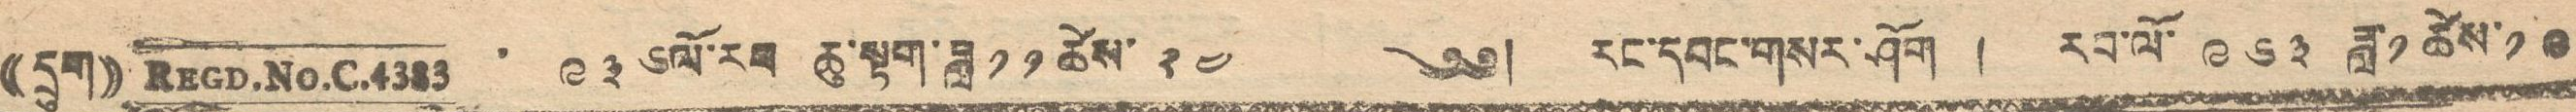((དྲུག)) REGD. NO. C. 4383. ༩༣ ༦ལོ་རབ ཆུ་སྟག་ཟླ་ ༡༡ ཚེས་ ༢༤ ༄༅། རང་དབང་གསར་ཤོག ། རབ་ལོ་ ༩༦༣ ཟླ་ ༡ ཚེས་ ༡༩
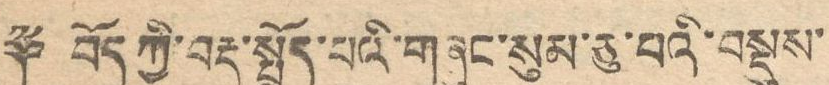༈ བོད ཀྱི་བརྡ་སྤྲོད་པའི་གཞུང་སུམ་ཅུ་པའི་བསྡུས་
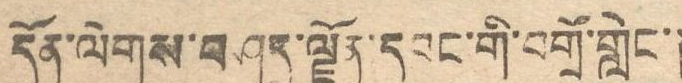དོན་ལེགས་བཤད་ལྗོན་དབང་གི་བགྲོ་གླེང་།
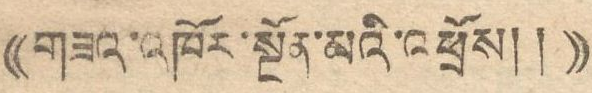((གཟའ་འཁོར་སྔོན་མའི་འཕྲོས། །))
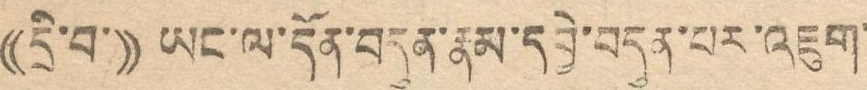((དྲི་བ་)) ཡང་ལ་དོན་བདུན་རྣམ་དབྱེ་བདུན་པར་འཇུག་
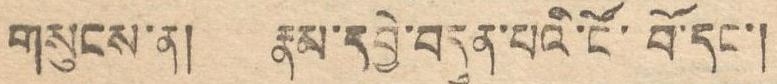གསུངས་ན། རྣམ་དབྱེ་བདུན་པའི་ངོ་བོ་དང་།
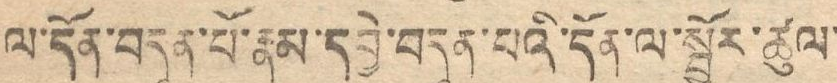ལ་དོན་བདུན་པོ་རྣམ་དབྱེ་བདུན་པའི་དོན་ལ་སྦྱོར་ཚུལ་
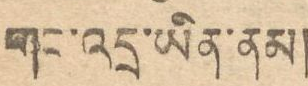གང་འདྲ་ཡིན་ནམ།
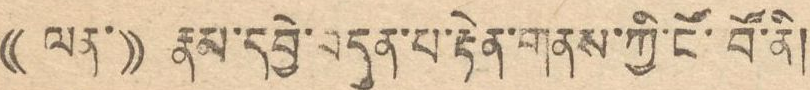(( ལན་)) རྣམ་དབྱེ་བདུན་པ་རྟེན་གནས་ཀྱི་ངོ་བོ་ནི།
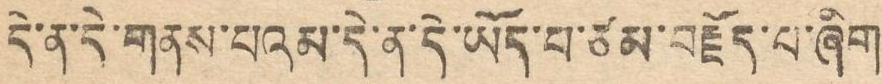དེ་ན་དེ་གནས་པའམ་དེ་ནི་དེ་ཡོད་པ་ཙམ་བརྗོད་པ་ཞིག
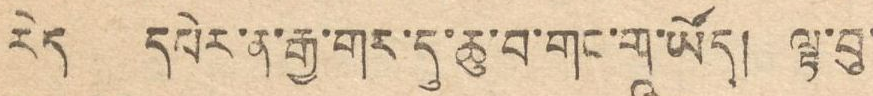རེད དཔེར་ན་རྒྱ་གར་དུ་ཆུ་བ་གང་གཱ་ཡོད། ལྟ་བུ་
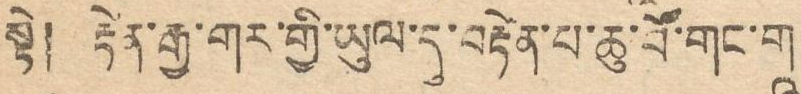སྟེ། རྟེན་རྒྱ་གར་གྱི་ཡུལ་དུ་བརྟེན་པ་ཆུ་བོ་གང་གཱ་
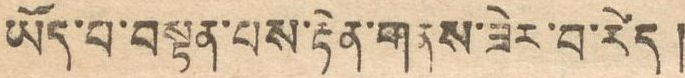ཡོད་པ་བསྟན་པས་རྟེན་གནས་ཟེར་བ་རེད །
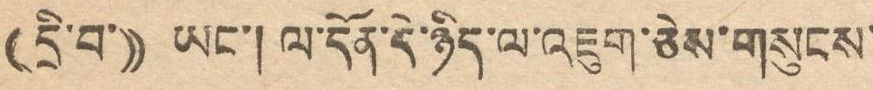((དྲི་བ་)) ཡང་། ལ་དོན་དེ་ཉིད་ལ་འཇུག་ཅེས་གསུངས་
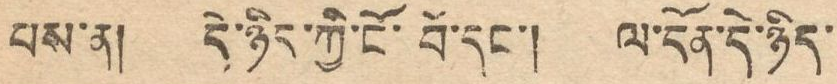པས་ན། དེ་ཉིད་ཀྱི་ངོ་བོ་དང་། ལ་དོན་དེ་ཉིད་
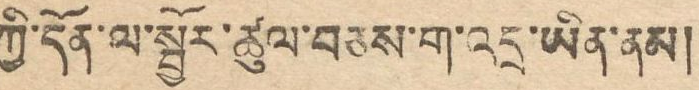ཀྱི་དོན་ལ་སྦྱོར་ཚུལ་བཅས་ག་འདྲ་ཡིན་ནམ།
